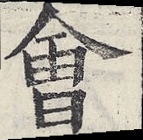會
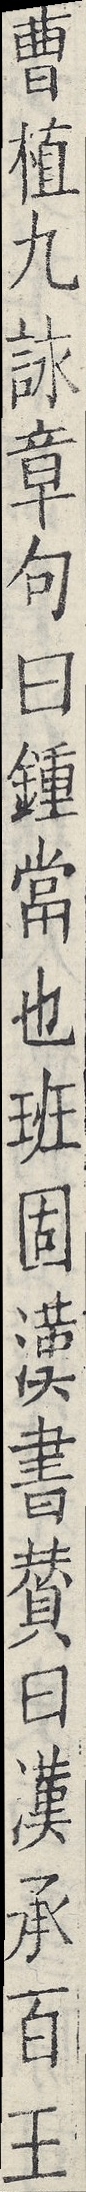曹植九詠章句曰鍾當也班固漢書賛曰漢承百王
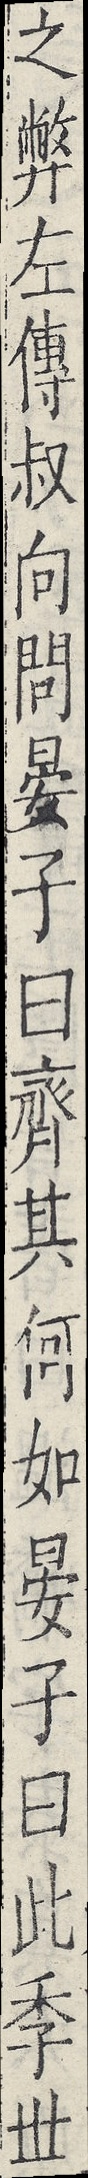之弊左傳叔向問晏子曰齊其何如晏子曰此季世
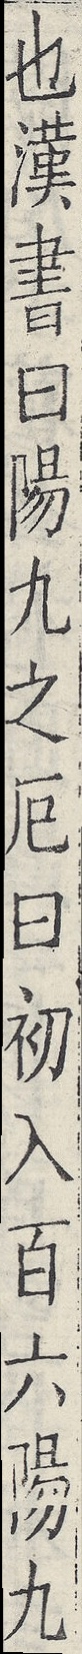也漢書曰陽九之厄曰初入百六陽九
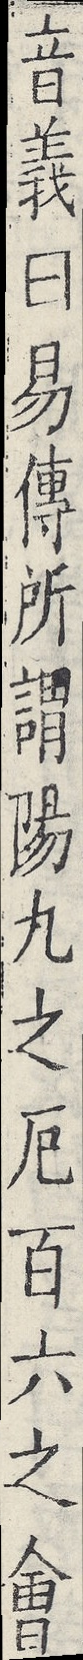音義曰易傳所謂陽九之厄百六之會
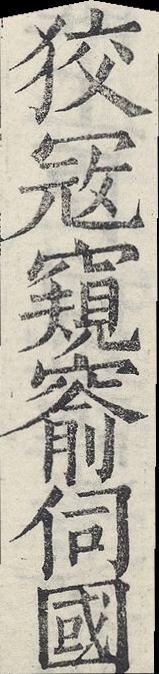狡寇窺窬伺國
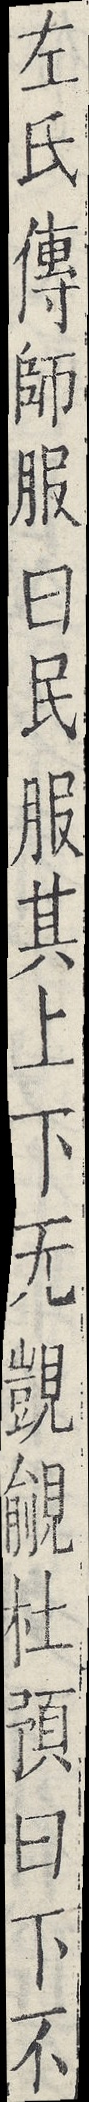左氏傳師服曰民服其上下無覬覦杜預曰下不
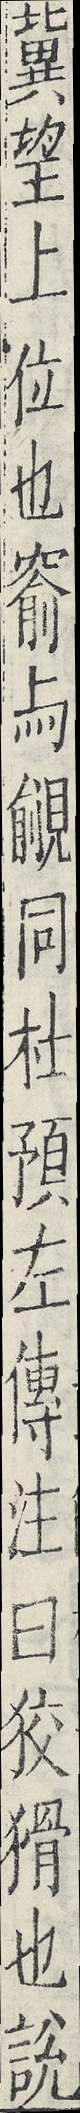冀望上位也窬與覦同杜預左傳注曰狡猾也說
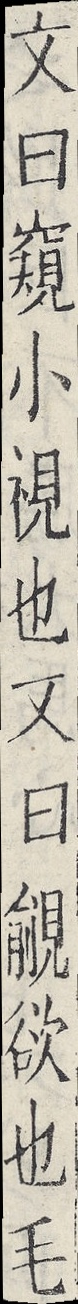文曰窺小視也又曰覦欲也毛
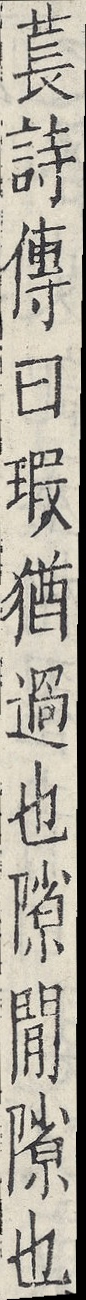萇詩傳曰瑕猶過也隙間隙也
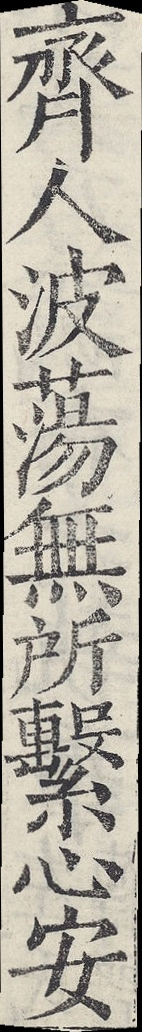齊人波蕩無所繫心安
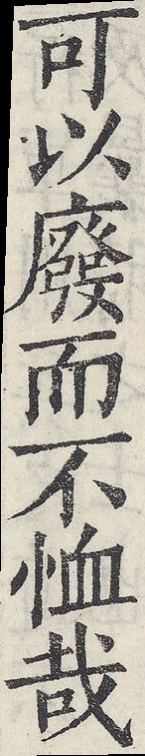可以廢而不恤哉
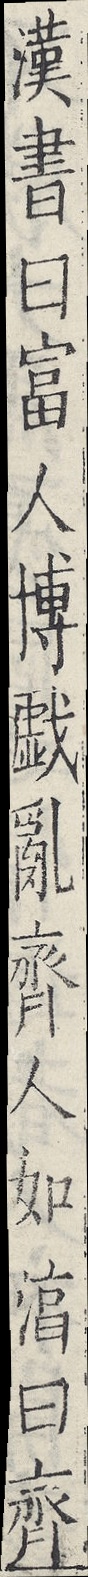漢書曰富人博戲亂齊人如湻曰齊
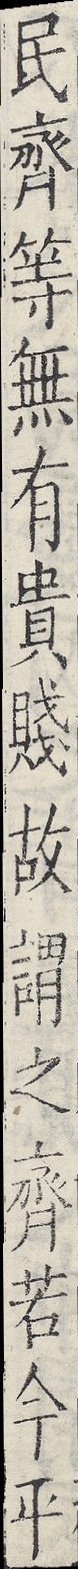民齊等無有貴賤故謂之齊若今平
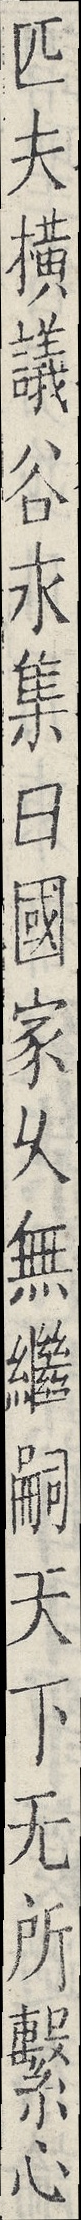匹夫橫議谷永集曰國家久無繼嗣天下無所繫心
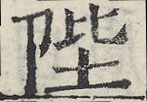陛
